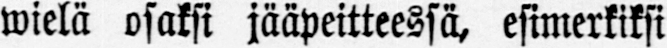wielä osaksi jääpeitteessä, esimerkiksi
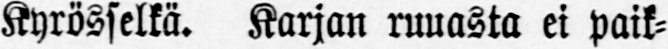Kyrösselkä. Karjan ruuasta ei paik-
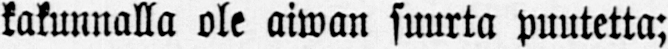kakunnalla ole aiwan suurta puutetta;
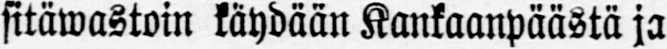sitäwastoin käydään Kankaanpäästä ja
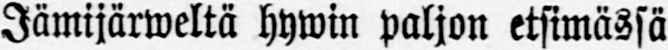Jämijärweltä hywin paljon etsimässä
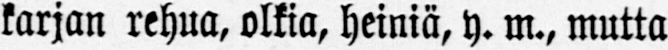karjan rehua, olkia, heiniä, y. m., mutta
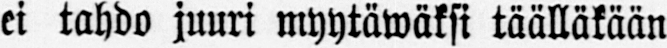ei tahdo juuri myytäwäksi täälläkään
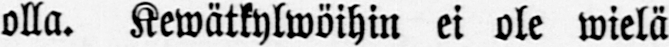olla. Kewätkylwöihin ei ole wielä
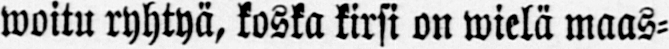woitu ryhtyä, koska kirsi on wielä maas-
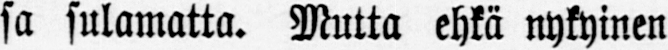sa sulamatta. Mutta ehkä nykyinen
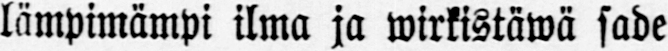lämpimämpi ilma ja wirkistäwä sade
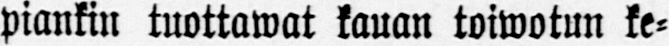piankin tuottawat kauan toiwotun ke-
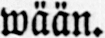wään.
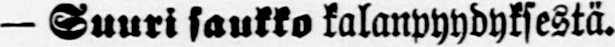— Suuri saukko kalanpyydyksestä.
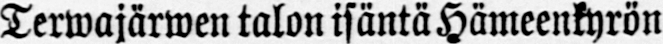Terwajärwen talon isäntä Hämeenkyrön
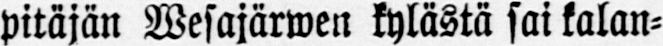pitäjän Wesajärwen kylästä sai kalan-
